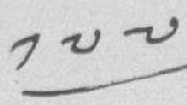༡༧༧
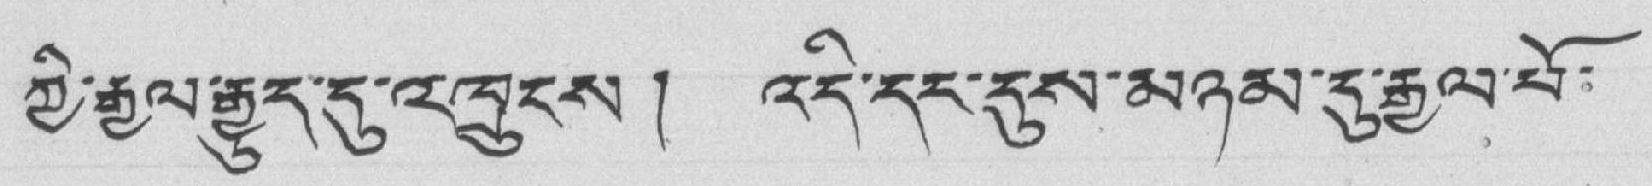ཀྱི་རྒྱལ་རྒྱུད་དུ་འཁྲུངས ། འདི་དང་དུས་མཉམ་དུ་རྒྱལ་པོ་
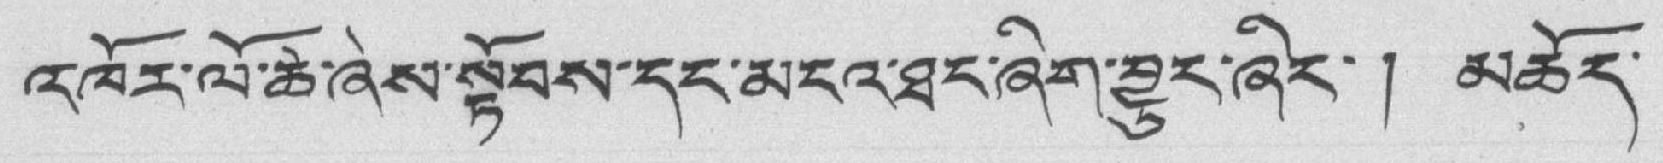འཁོར་ལོ་ཆེ་ཞེས་སྟོབས་དང་མངའ་ཐང་ཞིག་བྱུང་ཞིང་། མཆོད་
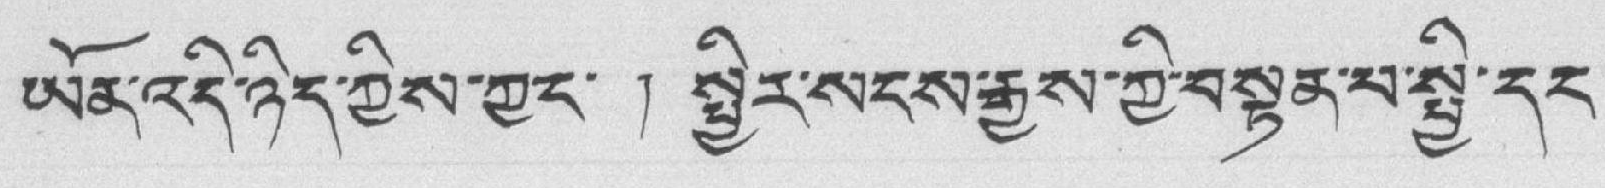ཡོན་འདི་ཉིད་ཀྱིས་ཀྱང་ ། སྤྱིར་སངས་རྒྱས་ཀྱི་བསྟན་པ་སྤྱི་དང་
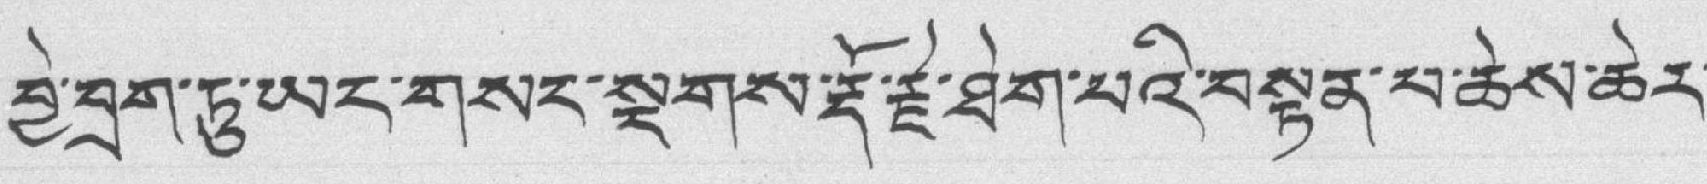བྱེ་བྲག་ཏུ་ཡང་གསར་སྔགས་རྡོ་རྗ་ཐེག་པའི་བསྟན་པ་ཆེས་ཆེར་
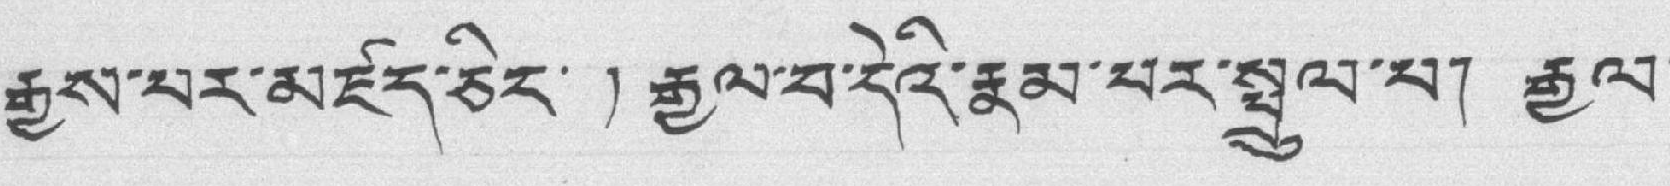རྒྱས་པར་མཛད་ཅིང་ ། རྒྱལ་བ་དེའི་རྣམ་པར་སྤྲུལ་པ། རྒྱལ་
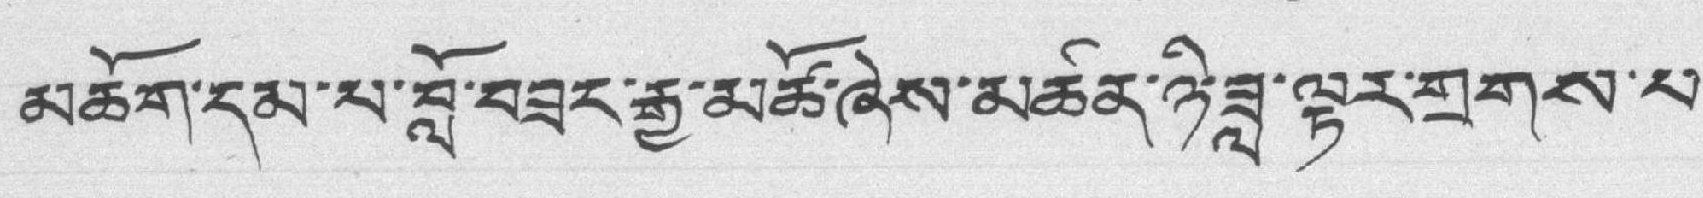མཆོག་དམ་པ་བློ་བཟང་རྒྱ་མཚོ་ཞེས་མཚན་ཉི་ཟླ་ལྟར་གྲགས་པ་
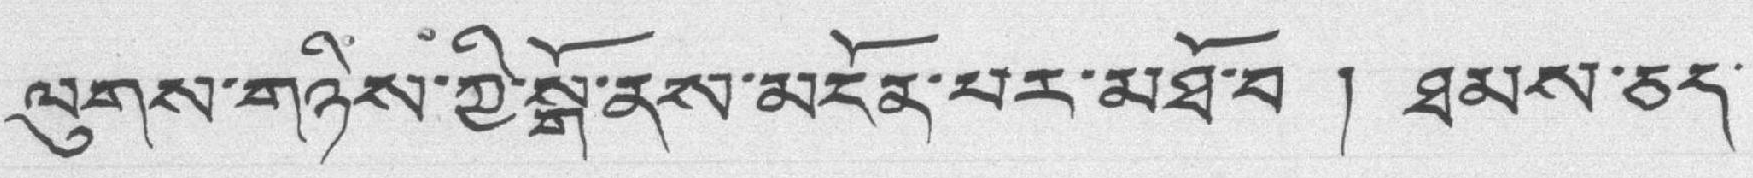ལུགས་གཉིས་ཀྱི་སྒོ་ནས་མངོན་པར་མཐོ་བ ། ཐམས་ཅད་
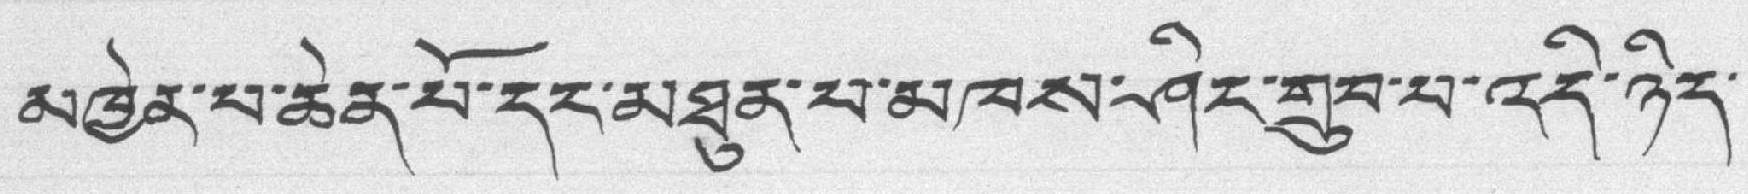མཁྱེན་པ་ཆེན་པོ་དང་མཐུན་པ་མཁས་ཤིང་གྲུབ་པ་འདི་ཉིད་
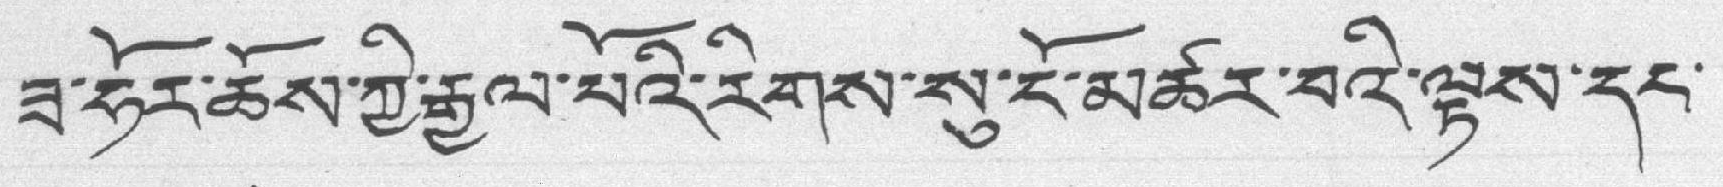ཟ་ཧོར་ཆོས་ཀྱི་རྒྱལ་པོའི་རིགས་སུ་ངོ་མཚར་བའི་ལྟས་དང་
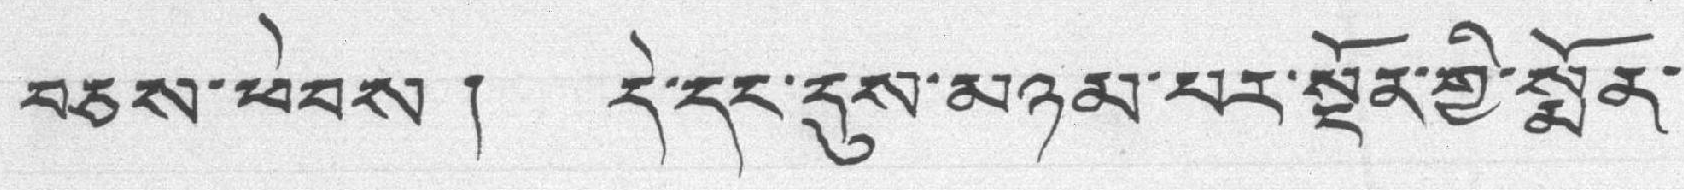བཅས་ཕེབས། དེ་དང་དུས་མཉམ་པར་སྔོན་གྱི་སྨོན་
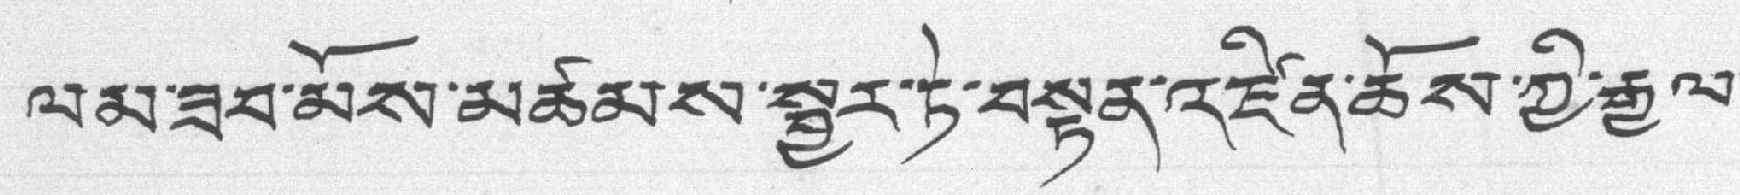ལམ་ཟབ་མོས་མཚམས་སྦྱར་ཏེ་བསྟན་འཛིན་ཆོས་ཀྱི་རྒྱལ་
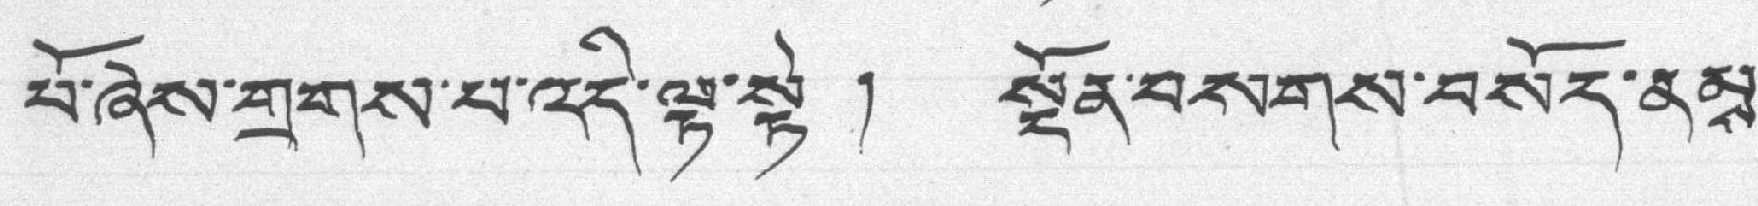པོ་ཞེས་གྲགས་པ་འདི་ལྟ་སྟེ ། སྔོན་བསགས་བསོད་ནམས་
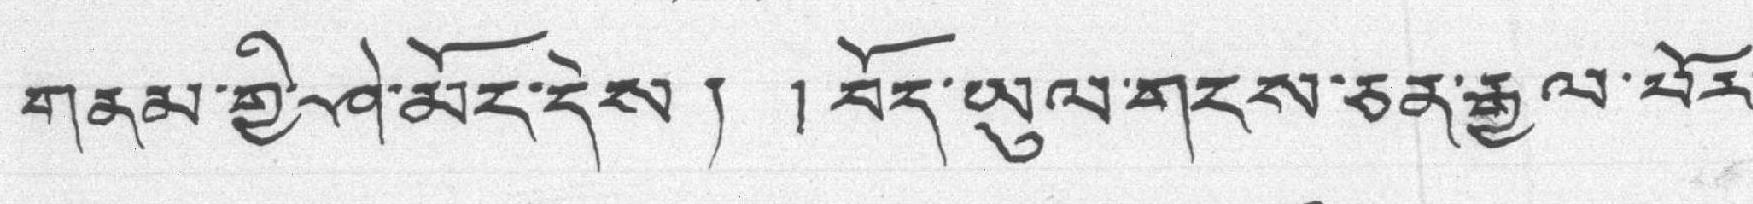གནམ་གྱི་ཤེ་མོང་དེས། །བོད་ཡུལ་གངས་ཅན་རྒྱལ་པོར་
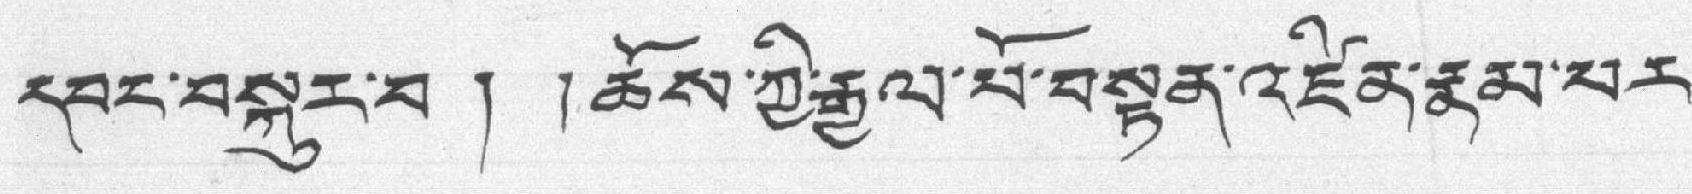དབང་བསྐུར་བ། །ཆོས་ཀྱི་རྒྱལ་པོ་བསྟན་འཛིན་རྣམ་པར་
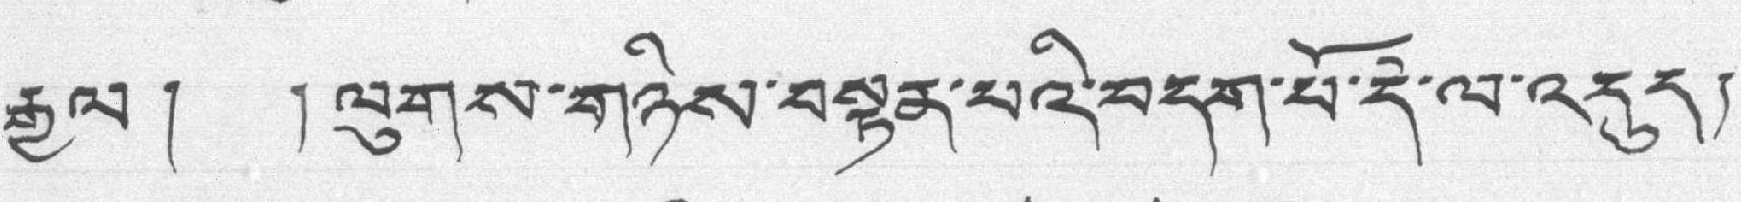རྒྱལ། །ལུགས་གཉིས་བསྟན་པའི་བདག་པོ་དེ་ལ་འདུད།
